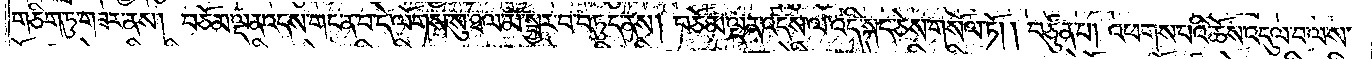གཅིག་ཏུ་གཟར་ནས། བཅོམ་ལྡན་འདས་གང་ན་བ་དེ་ལོགས་སུ་ཐལ་མོ་སྦྱར་བ་བཏུད་ནས། བཅོམ་ལྡན་འདས་ལ་འདི་སྐད་ཅེས་གསོལ་ཏོ། །བཙུན་པ། འཕགས་པའི་ཆོས་འདུལ་བ་ལ་ས་
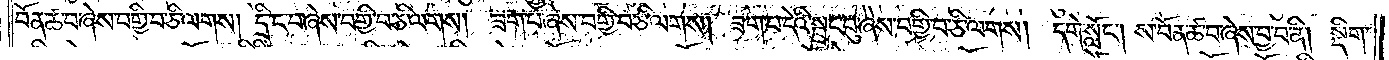བོན་ཚ་བ་ཞེས་བགྱི་བ་ཅི་ལགས། དྲི་ང་བ་ཞེས་བགྱི་བ་ཅི་ལགས། ཟག་པ་ཞེས་བགྱི་བ་ཅི་ལགས། ཟག་པ་དེའི་སྦྲང་བུ་ཞེས་བགྱི་བ་ཅི་ལགས། དགེ་སློང༌། ས་བོན་ཚ་བ་ཞེས་བྱ་བ་ནི། སྡིག་
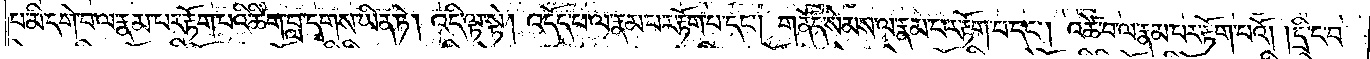པ་མི་དགེ་བ་རྣམ་པར་རྟོག་པའི་ཚིག་བླ་དྭགས་ཡིན་ཏེ། འདི་ལྟ་སྟེ། འདོད་པ་ལ་རྣམ་པར་རྟོག་པ་དང༌། གནོད་སེམས་ལ་རྣམ་པར་རྟོག་པ་དང༌། འཚེ་བ་ལ་རྣམ་པར་རྟོག་པའོ། །དྲི་ང་བ་
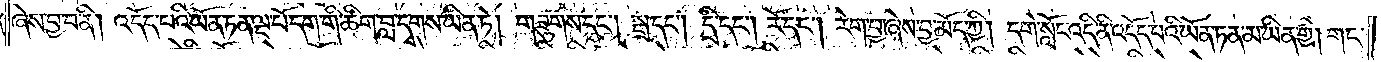ཞེས་བྱ་བ་ནི། འདོད་པའི་ཡོན་ཏན་ལྔ་པོ་དག་གི་ཚིག་བླ་དྭགས་ཡིན་ཏེ། གཟུགས་དང༌། སྒྲ་དང༌། དྲི་དང༌། རོ་དང༌། རེག་བྱ་ཞེས་བྱ་མོད་ཀྱི། དགེ་སློང་འདི་ནི་འདོད་པའི་ཡོན་ཏན་མ་ཡིན་གྱི། གང་
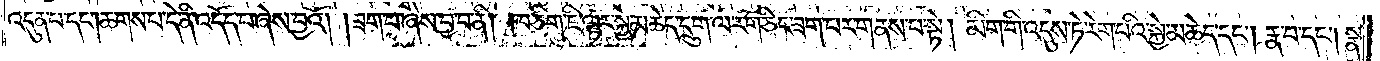འདུན་པ་དང༌།ཆགས་པ་དེ་ནི་འདོད་པ་ཞེས་བྱའོ། །ཟག་པ་ཞེས་བྱ་བ་ནི། ཁ་ཅིག་ཇི་ལྟར་སྐྱེ་མཆེད་དྲུག་ལ་རེག་ཅིང་ཟག་པར་གནས་པ་སྟེ། མིག་གི་འདུས་ཏེ་རེག་པའི་སྐྱེ་མཆེད་དང༌། རྣ་བ་དང༌། སྣ་
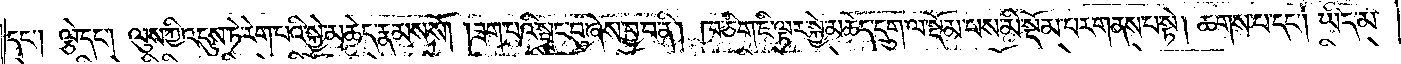དང༌། ལྕེ་དང༌། ལུས་ཀྱི་འདུས་ཏེ་རེག་པའི་སྐྱེ་མཆེད་རྣམས་སོ། །ཟག་པའི་སྦྲང་བུ་ཞེས་བྱ་བ་ནི། ཁ་ཅིག་ཇི་ལྟར་སྐྱེ་མཆེད་དྲུག་ལ་སྡོམ་པས་མི་སྡོམ་པར་གནས་པ་སྟེ། ཆགས་པ་དང༌། ཡིད་མི་
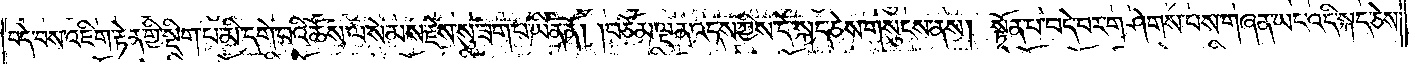བདེ་བས་འཇིག་རྟེན་གྱི་སྡིག་པ་མི་དགེ་བའི་ཆོས་ལ་སེམས་རྗེས་སུ་ཟག་པ་ཡིན་ནོ། །བཅོམ་ལྡན་འདས་ཀྱིས་དེ་སྐད་ཅེས་གསུངས་ནས། སྟོན་པ་བདེ་བར་གཤེགས་པས་གཞན་ཡང་འདི་སྐད་ཅེས་
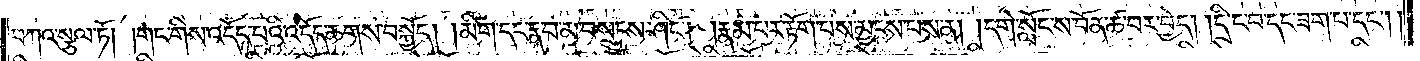བཀའ་སྩལ་ཏོ། །གང་གིས་འདོད་པའི་འདོད་ཆགས་བསྐྱོད། །མིག་དང་རྣ་བ་མ་བསྲུངས་ཤིང༌། །རྣམ་པར་རྟོག་པས་མྱངས་པས་ན། །དགེ་སློང་ས་བོན་ཚ་བར་བྱེད། །དྲི་ང་བ་དང་ཟག་པ་དང༌། །
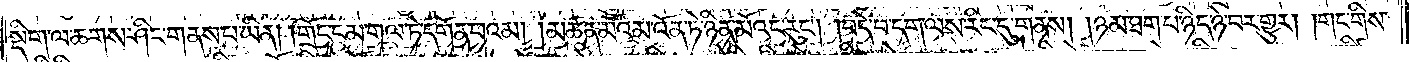སྡིག་ལ་ཆགས་ཤིང་གནས་པ་ཡིན། །གྲོང་ངམ་གལ་ཏེ་དགོན་པའམ། །མཚན་མོའམ་འོན་ཏེ་ཉིན་མོའང་རུང༌། །བདེ་བ་དག་ལས་རིང་དུ་གནས། །ཉམ་ཐག་པ་ཉིད་ཉེ་བར་གྱུར། །གང་གིས་
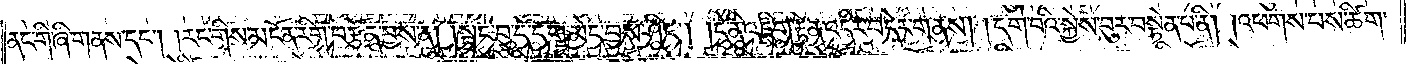ནང་གི་ཞི་གནས་དང༌། །རང་གིས་མངོན་རིག་བརྩོན་བྱས་ན། །སྦྲང་བུ་དེ་དག་མེད་བྱས་ཤིང༌། །དེ་ནི་འཇིག་རྟེན་འདིར་བདེར་གནས། །དགེ་བའི་སྐྱེས་བུར་བསྟེན་པ་ནི། །འཕགས་པས་ཚིག་
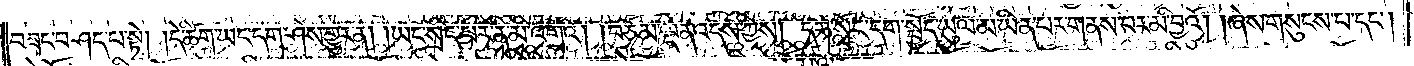བཟང་བཤད་པ་སྟེ། །དེ་ཚིག་ཡང་དག་ཤེས་གྱུར་ན། །ཡང་སྲིང་པར་ནི་མི་འགྲོའོ། །བཅོམ་ལྡན་འདས་ཀྱིས། དགེ་སློང་དག་སྤྱོད་ཡུལ་མ་ཡིན་པར་གནས་པར་མི་བྱའོ། །ཞེས་གསུངས་པ་དང༌།
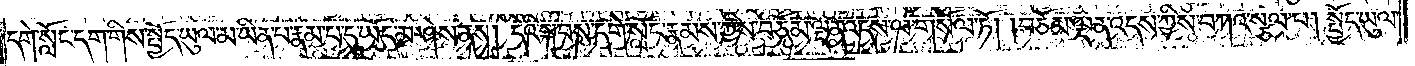དགེ་སློང་དག་གིས་སྤྱོད་ཡུལ་མ་ཡིན་པ་རྣམ་པ་དུ་ཡོད་མ་ཤེས་ནས། དེའི་སྐབས་དགེ་སློང་རྣམས་ཀྱིས་བཅོམ་ལྡན་འདས་ལ་གསོལ་ཏོ། །བཅོམ་ལྡན་འདས་ཀྱིས་བཀའ་སྩལ་པ། སྤྱོད་ཡུལ་
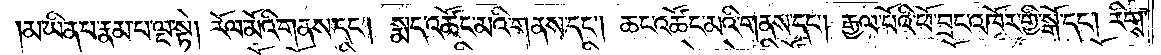མ་ཡིན་པ་རྣམ་པ་ལྔ་སྟེ། རོལ་མོའི་གནས་དང༌། སྨད་འཚོང་མའི་གནས་དང༌། ཆང་འཚོང་མའི་གནས་དང༌། རྒྱལ་པོའི་ཕོ་བྲང་འཁོར་གྱི་སྒོ་དང༌། རིགས་
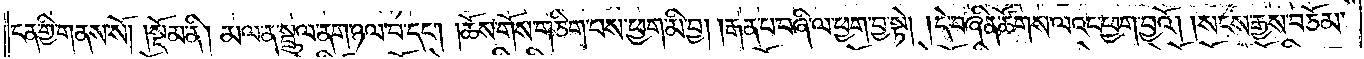ངན་གྱི་གནས་སོ།    །སྡོམ་ནི། མལ་ན་སྦྲུལ་ནག་ཉལ་བ་དང༌། །ཆོས་གོས་གཅིག་པས་ཕྱག་མི་བྱ། །རྒན་པ་བཞི་ལ་ཕྱག་བྱ་སྟེ། །དེ་བཞིན་ཚོགས་ལའང་ཕྱག་བྱའོ། །སངས་རྒྱས་བཅོམ་
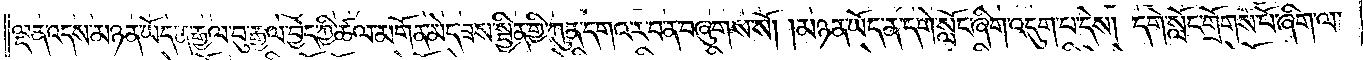ལྡན་འདས་མཉན་ཡོད་ན་རྒྱལ་བུ་རྒྱལ་བྱེད་ཀྱི་ཚལ་མགོན་མེད་ཟས་སྦྱིན་གྱི་ཀུན་དགའ་ར་བ་ན་བཞུགས་སོ། །མཉན་ཡོད་ན་དགེ་སློང་ཞིག་འདུག་པ་དེས། དགེ་སློང་གྲོགས་པོ་ཞིག་ལ་
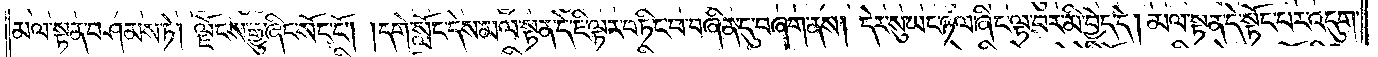མལ་སྟན་བཤམས་ཏེ། ལྗོངས་རྒྱུ་ཞིང་སོང་ངོ༌། །དགེ་སློང་དེས་མལ་སྟན་དེ་ཇི་ལྟར་བཏིང་བ་བཞིན་དུ་བཞག་ནས། དེར་སུ་ཡང་ཉལ་ཞིང་ལྟ་བར་མི་བྱེད་དེ། མལ་སྟན་ཏེ་སྟོང་པར་འདུག་
